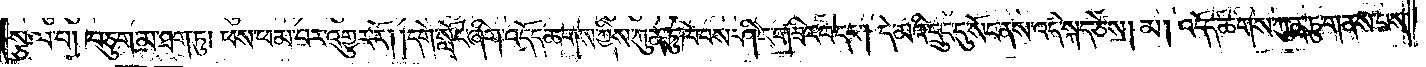སྩལ་པ། བཅུག་མ་ཐག་ཏུ། ཕས་ཕམ་པར་འགྱུར་རོ། །དགེ་སློང་ཞིག་འདོད་ཆགས་ཀྱིས་ཀུན་ཏུ་ཁེབས་ཤིང་གཟིར་བ་དང༌། དེ་མའི་དྲུང་དུ་སོང་ནས་འདི་སྐད་ཅེས། མ། འདོད་ཆགས་ཀུན་ཏུ་གནས་པས་
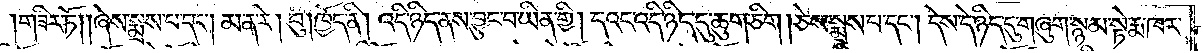གཟིར་ཏོ། །ཞེས་སྨྲས་པ་དང༌། མ་ན་རེ། བུ། ཁྱོད་ནི། འདི་ཉིད་ནས་བྱུང་བ་ཡིན་གྱི། དའང་འདི་ཉིད་དུ་ཆུག་ཅིག །ཅེས་སྨྲས་པ་དང༌། དེས་དེ་ཉིད་དུ་གཞུག་སྙམ་སྟེ་རྨ་ཁར་
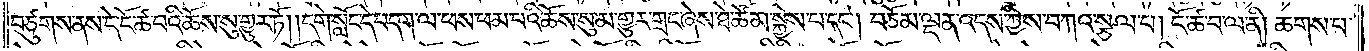བཙུགས་ནས་དེ་ངོ་ཚ་བའི་ཆོས་སུ་གྱུར་ཏོ། །དགེ་སློང་དེ་བདག་ལ་ཕས་ཕམ་པའི་ཆོས་སུ་མ་གྱུར་གྲང་ཞེས་ཐེ་ཚོམ་སྐྱེས་པ་དང༌། བཅོམ་ལྡན་འདས་ཀྱིས་བཀའ་སྩལ་པ། ངོ་ཚ་བ་ལ་ནི། ཆགས་པ་
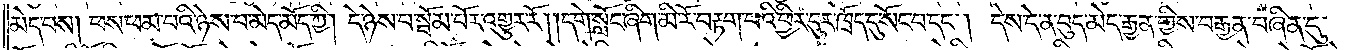མེད་པས། ཕས་ཕམ་པའི་ཉེས་པ་མེད་མོད་ཀྱི། དེ་ཉེས་པ་སྦོམ་པོར་འགྱུར་རོ། །དགེ་སློང་ཞིག་མི་རོ་བརྟག་པའི་ཕྱིར་དུར་ཁྲོད་དུ་སོང་བ་དང༌། དེས་དེ་ན་བུད་མེད་རྒྱན་གྱིས་བརྒྱན་བཞིན་དུ་
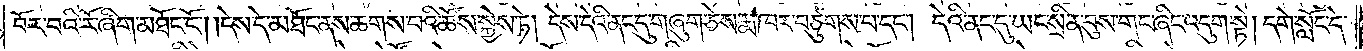བོར་བའི་རོ་ཞིག་མཐོང་ངོ༌། །དེས་དེ་མཐོང་ནས་ཆགས་པའི་ཆོས་སྐྱེས་ཏེ། དེས་དེའི་ནང་དུ་གཞུག་ཅེས་རྨ་ཁར་བཙུགས་པ་དང༌། དེའི་ནང་དུ་ཡང་སྲིན་བུས་གང་ཞིང་འདུག་སྟེ། དགེ་སློང་དེ་
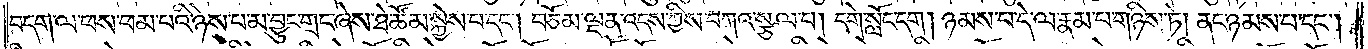བདག་ལ་ཕས་ཕམ་པའི་ཉེས་པ་མ་བྱུང་གྲང་ཞེས་ཐེ་ཚོམ་སྐྱེས་པ་དང༌། བཅོམ་ལྡན་འདས་ཀྱིས་བཀའ་སྩལ་པ། དགེ་སློང་དག །ཉམས་པ་དེ་ལ་རྣམ་པ་གཉིས་ཏེ། ནང་ཉམས་པ་དང༌།
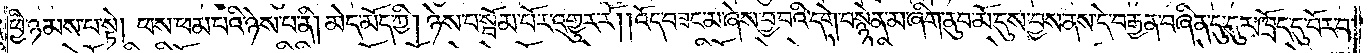ཕྱི་ཉམས་པ་སྟེ། ཕས་ཕམ་པའི་ཉེས་པ་ནི། མེད་མོད་ཀྱི། ཉེས་པ་སྦོམ་པོར་འགྱུར་རོ། །འོད་བཟང་མ་ཞེས་བྱ་བའི་དགེ་བསྙེན་མ་ཞིག་ནུབ་མོ་དུས་བྱས་ནས་དེ་བརྒྱན་བཞིན་དུ་དུར་ཁྲོད་དུ་བོར་བ་
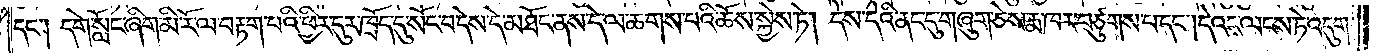དང༌། དགེ་སློང་ཞིག་མི་རོ་ལ་བརྟག་པའི་ཕྱིར་དུར་ཁྲོད་དུ་སོང་བ་དེས་དེ་མཐོང་ནས་དེ་ལ་ཆགས་པའི་ཆོས་སྐྱེས་ཏེ། དེས་དེའི་ནང་དུ་གཞུག་ཅེས་རྨ་ཁར་བཙུགས་པ་དང༌། དེའང་ལངས་ཏེ་འདུག་
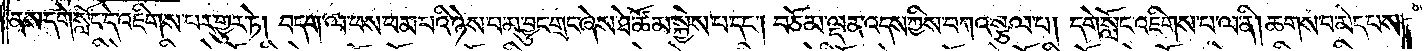ནས་དགེ་སློང་དེ་འཇིགས་པར་གྱུར་ཏེ། བདག་ལ་ཕས་ཕམ་པའི་ཉེས་པ་མ་བྱུང་གྲང་ཞེས་ཐེ་ཚོམ་སྐྱེས་པ་དང༌། བཅོམ་ལྡན་འདས་ཀྱིས་བཀའ་སྩལ་པ། དགེ་སློང་འཇིགས་པ་ལ་ནི། ཆགས་པ་མེད་པས་
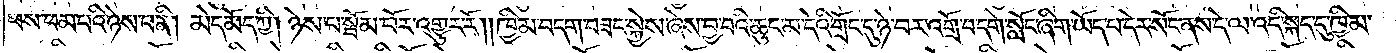ཕས་ཕམ་པའི་ཉེས་པ་ནི། མེད་མོད་ཀྱི། ཉེས་པ་སྦོམ་པོར་འགྱུར་རོ། །ཁྱིམ་བདག་བཟང་སྐྱེས་ཞེས་བྱ་བའི་ཆུང་མ་དེའི་གྲོང་དུ་ཉེ་བར་འགྲོ་བ་དགེ་སློང་ཞིག་ཡོད་པ་དེར་སོང་ནས་དེ་ལ་འདི་སྐད་དུ་ཁྱིམ་
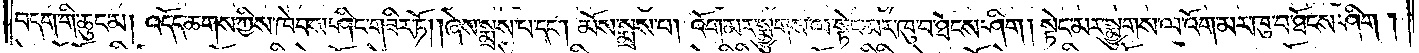བདག་གི་ཆུང་མ། འདོད་ཆགས་ཀྱིས་ཁེབས་ཤིང་གཟིར་ཏོ། །ཞེས་སྨྲས་པ་དང༌། མོས་སྨྲས་པ། འོག་མར་སྨྱུགས་ལ་སྟེང་མར་ཁུ་བ་ཐོངས་ཤིག །སྟེང་མར་སྨྱུགས་ལ་འོག་མར་ཁུ་བ་ཐོངས་ཤིག།
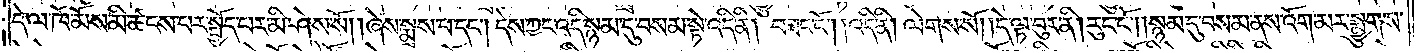དེ་ལ་ཁོ་མོས་མི་ཚངས་པར་སྤྱོད་པར་མི་ཤེས་སོ། །ཞེས་སྨྲས་པ་དང༌། དེས་ཀྱང་འདི་སྙམ་དུ་བསྙམ་སྟེ་འདི་ནི། བཟང་ངོ༌། །འདི་ནི། ལེགས་སོ། །དེ་ལྟ་བུར་ནི། རུང་ངོ༌། །སྙམ་དུ་བསམ་ནས་འོག་མར་སྨྱུགས་
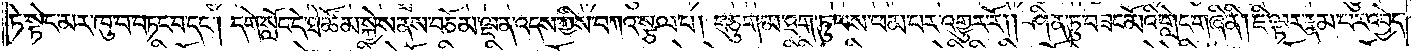ཏེ་སྟེང་མར་ཁུ་བ་བཏང་བ་དང༌། དགེ་སློང་དེ་ཐེ་ཚོམ་སྐྱེས་ནས་བཅོམ་ལྡན་འདས་ཀྱིས་བཀའ་སྩལ་པ། བཅུག་མ་ཐག་ཏུ་ཕས་ཕམ་པར་འགྱུར་རོ། །ཤིན་ཏུ་བཟང་མོའི་གླེང་གཞི་ནི། ཇི་ལྟར་རྣམ་པར་འབྱེད་
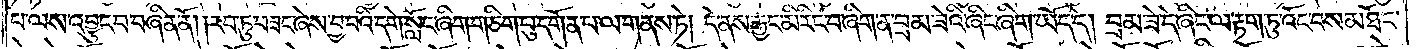པ་ལས་འབྱུང་བ་བཞིན་ནོ། །རབ་ཏུ་བཟང་ཞེས་བྱ་བའི་དགེ་སློང་ཞིག་གཅིག་བུ་དགོན་པ་ལ་གནས་ཏེ། དེ་ནས་རྒྱང་མི་རིང་བ་ཞིག་ན་བྲམ་ཟེའི་ཞིང་ཞིག་ཡོད་དེ། བྲམ་ཟེ་དེ་ཞིང་ལ་རྟག་ཏུ་འོང་བས་མཐོང་
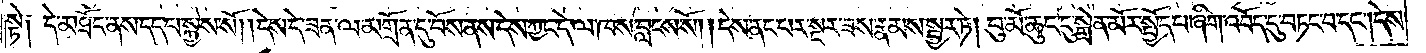སྟེ༑ དེ་མཐོང་ནས་དད་པ་སྐྱེས་སོ། །དེས་དེ་ཟན་ལ་མགྲོན་དུ་བོས་ནས་དེས་ཀྱང་དེ་ལ་ཁས་བླངས་སོ། །དེས་ནང་པར་སྔར་ཟས་རྣམས་སྦྱར་ཏེ། བུ་མོ་ཆུང་ངུ་སྒྲེན་མོར་སྤྱོད་པ་ཞིག་འབོད་དུ་བཏང་བ་དང༌། དེས་
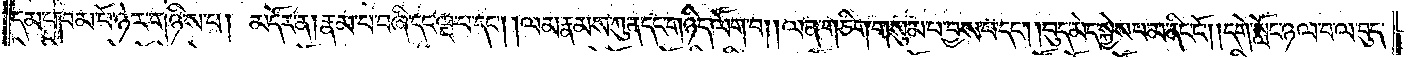དམ་པ༑ བམ་པོ་ཉེར་གཉིས་པ། མདོར་ན། རྣམ་པ་བཞི་དང་ལྔ་པ་དང༌། །ལམ་རྣམས་ཀུན་དང་གཉིད་ལོག་པ། །ལན་གཅིག་གསུམ་པ་བྱས་པ་དང༌། །བུད་མེད་སྐྱེས་པ་མ་ནིང་ངོ༌། །དགེ་སློང་ཉལ་བ་ལ་བུད་
